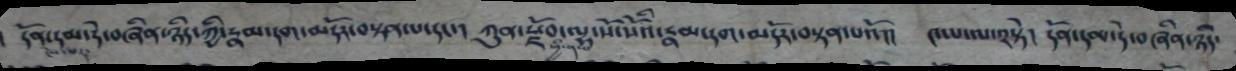དོན་དམ་དེ་བཞིན་ཉིད་ཀྱི་རྣམ་དག་མདོར་བསྟན་པ་དང་།  ཀུན་རྫོབ་ལྷ་སོ་སོའ་རྣམ་དག་མདོར་བསྟན་པའོ།།   ༤་པ་ལ་༢སྟེ།  དོན་དམ་དེ་བཞིན་ཉིད་
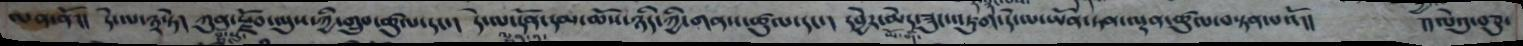ལན་ནོ།།  དེ་ལ༣སྟེ།  ཀུན་རྫོབ་ལུས་ཀྱི་གྲུབ་ཚུལ་དང་།   དེ་ལ་དོན་དམ་ཆོས་ཉིད་ཀྱི་གནས་ཚུལ་དང་།  དབྱེར་མེད་ཟུང་འཇུག་དེ་ལ་ཡོན་ཏན་ལྡན་ཚུལ་བསྟན་པའོ།།    །།ལེའུ་བཅུ་
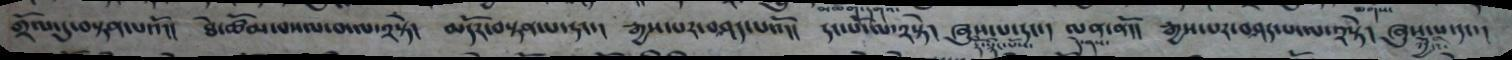གྲོལ་དུ་བསྟན་པའོ།།   ཐེ་ཚོམ་བསལ་བ་ལ་༢སྟེ།  མདོར་བསྟན་པ་དང་།  རྒྱས་པར་བཤད་པའོ།།   དང་པོ་ལ་༢སྟེ།   ཞུས་པ་དང་།  ལན་ནོ།།   རྒྱས་པར་བཤད་པ་ལ༢སྟེ།  ཞུས་པ་དང་།
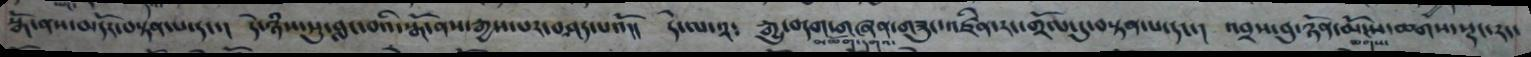སྒོ་ནས་མདོར་བསྟན་པ་དང་།   དེ་ཉཾས་སུ་བླང་བའི་སྒོ་ནས་རྒྱས་པར་བཤད་པའོ།།    དེ་ལ་༢༴   རྒྱུ་བདག་གཞན་གཟུང་འཛིན་རང་གྲོ་དུ་བསྟན་པ་དང་།   འབྲས་བུ་ཉོན་མོངས་ཆགས་སྡང་རད་
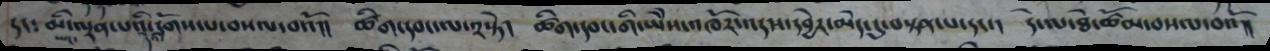དང༴  མི་ལྡན་པའི་དོགས་པ་བསལ་བའོ།།   ཚིག་དབང་ལ་༢སྟེ།   ཚིག་དབང་གི་ཡེེས་འཁོར་འདས་དབྱེར་མེད་དུ་བསྟན་པ་དང་།  དེ་ལ་ཐེ་ཚོམ་བསལ་བའོ།།
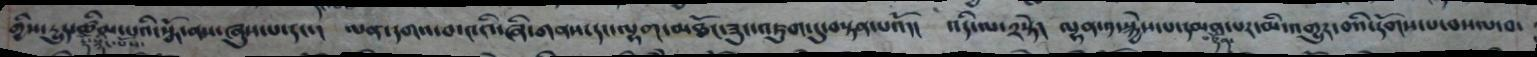གྱིས་དྱུདཚོམ་པའི་སྒོ་ནས་ཞུས་པ་དང་།  ལན་དགའ་བ་༤འི་ཞི་གནས་དང་ལྷག་མཐོང་ཟུང་འཇུག་དུ་བསྟན་པའོ།།  འདི་ལ་༢སྟེ།  ལྷན་༡་སྐྱེས་པ་དམན་པར་མི་འགྱུར་བའི་དོགས་པ་བསལ་བ་
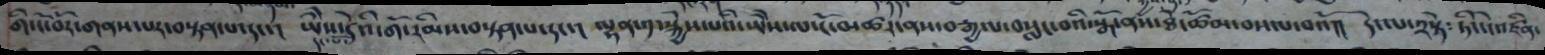གི་ངོ་བོར་གནས་པར་བསྟན་པ་དང་། ཡཻས་དེའི་གོ་རིམས་བསྟན་པ་དང་། ལྷན་༡་སྐྱེས་པའི་ཡཻས་ལ་ངོ་མཚར་ནས་བརྒྱལ་བསླང་བའི་སྒོ་ནས་ཐེ་ཚོམ་བསལ་བའོ།། དེ་ལ་༢སྟེ༴ ཏིང་ངེ་འཛིན་
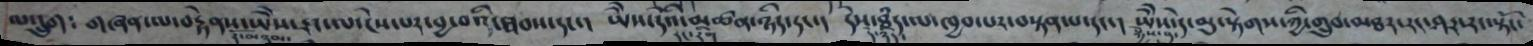ལ་དྲུག༴   གཞན་ལ་བརྟནས་ཡེེས་རང་ལ་ངེས་པར་བྱ་བའི་ཐབས་དང་།   ཡེེས་དེའི་མཚན་ཉིད་དང་།   དེས་ཐཾད་ལ་ཁྱབ་པར་བསྟན་པ་དང་།  ཡེེས་དེ་མུ་སྟེགས་ཀྱི་གྲུབ་མཐར་རང་ཤར་རང་སྟོང་
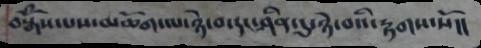བསྒོཾས་པས་མཆོག་ལ་ཉེ་བ་དང་ཤིན་དུ་ཉེ་བའི་རྟགས་སོ།།
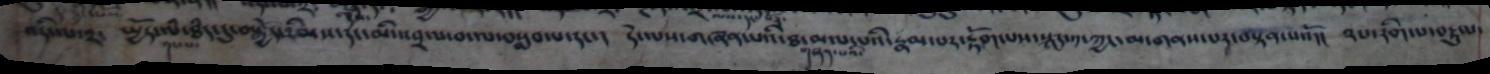འདི་ལ་༢་   སྤྱོད་ལཾ་ཐཾད་དུ་བསྐྱེད་རིམས་དང་མི་འབྲལ་བ་ལ་བསླབ་པ་དང་།   དེ་ལས་གཞན་པའི་ཐ་མལ་པའི་རྣམ་པར་རྟོག་པས་སླར་༡་ཀྱང་མ་གནས་པར་བསྟོན་པའོ།།   ༢པ་རིག་པ་བརྟུལ་
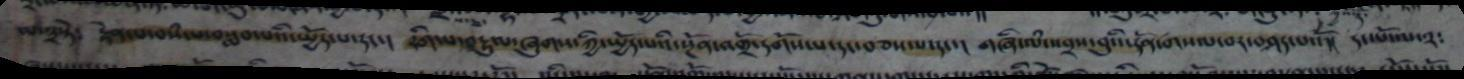ལ་༣སྟེ༴   རྟེན་པ་བསཾ་པ་བསླབ་པའི་སྤྱོད་པ་དང་།  རིག་པ་བརྟུལ་ཞུགས་ཀྱི་སྤྱོད་པའི་སྔོན་འགྲོ་དགོས་པ་དང་བཅས་པ་དང་།   གཞི་ལཾ་འབྲས་བའི་དོན་གསལ་བར་བཤད་པའོ།།  དང་པོ་ལ་༢༴
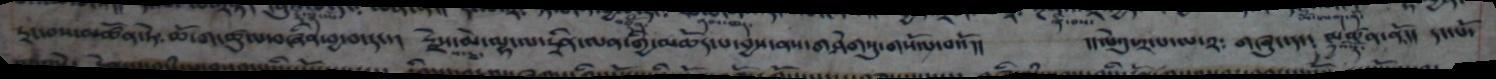དྲང་བས་མཚོན་ཏེ༴   ཆོ་ག་ཚུལ་བཞིན་བྱ་བ་དང་།   རྗེས་མེ་ལྷ་ལ་དྲིན་ལན་གྱི་མཆོད་པ་བྱས་ནས་གཤེགསུ་གསོལ་བའོ།།   །།ལེའུ་༢་པ་ལ་༢༴  གཞུང་དང༴  མཚན་ནོ།།  དང་པོ་
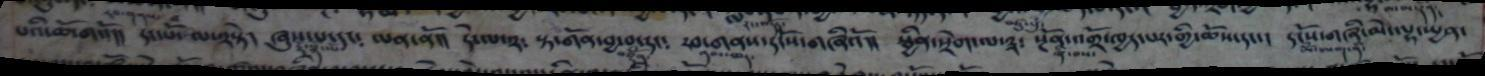པའི་ཆོ་གའོ།།  དང་པོ་ལ་༢སྟེ།  ཞུས་པ་དང༴  ལན་ནོ།།  དེ་ལ་༢༴  སྟ་གོན་བྱ་བ་དང༴  རབ་གནས་དངོས་གཞིའོ།།   སྦྱིན་སྲེག་ལ༣༴   སྔོན་འགྲོ་ཁྱད་པར་གྱི་ཆོས་དང་།   དངོས་གཞི་མེ་ལྷ་སྤྱན་
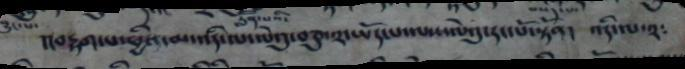།།བརྟག་པ་ཕྱིར་མ་འདི་ལ་ལེའུ་བཅུ་༢་ཡོད་པ་ལས་ལེའུ་དང་པོ་སྟོན།  འདི་ལ་༢༴
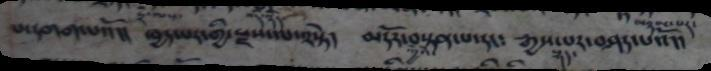པ་དགག་པའོ།།  ཁྱད་པར་གྱི་རྫས་ལ་༢སྟེ།  མདོར་བསྟན་པ་དང༴  རྒྱས་པར་བཤད་པའོ།།
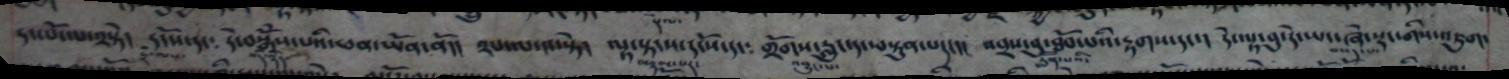དང་པོ་ལ་༢སྟེ།   དངོས་དང༴   དེ་བསྒྲུཾས་པའི་ཕན་ཡོན་ནོ།།  ༢་པ་ལ་༤་སྟེ།  ལྟ་སྟངས་དངོས་དང༴   གྲོགས་རླུང་ནང་བསྟུན་པ་དང།།   འབྲས་བུ་ཐོབ་པའི་རྟགས་དང་།   དེ་ལྟ་བུ་དེ་ཡང་ཞེ་སྡང་གིས་འཇུག་
